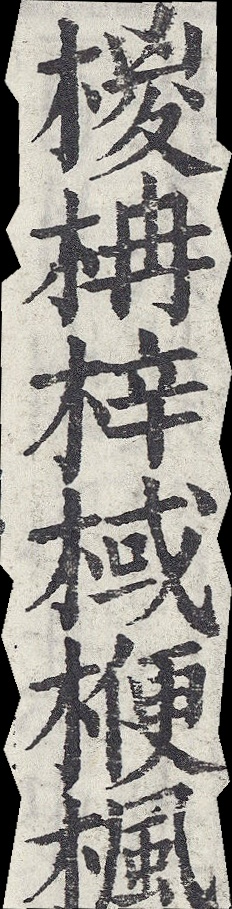椶柟梓棫楩楓
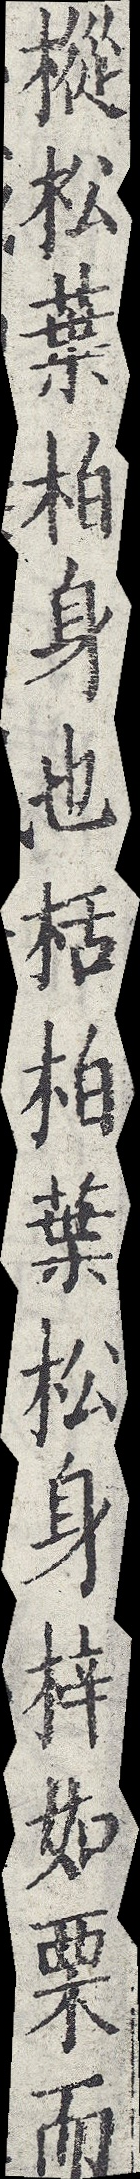樅松葉柏身也栝柏葉松身梓如栗而
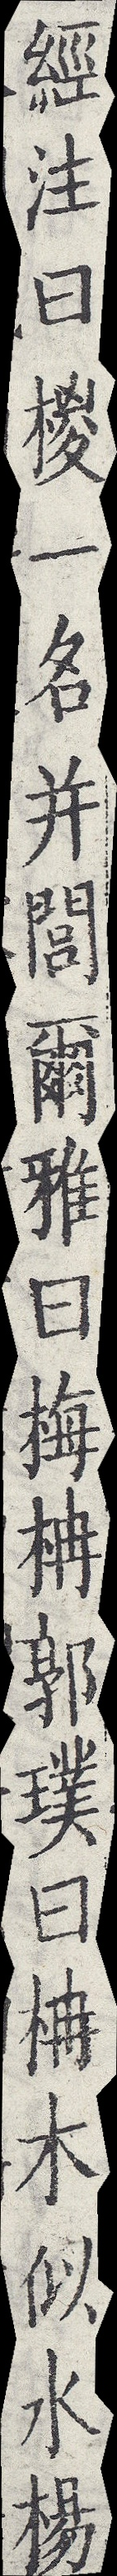經注曰椶一名并閭爾雅曰梅柟郭璞曰柟木似水楊
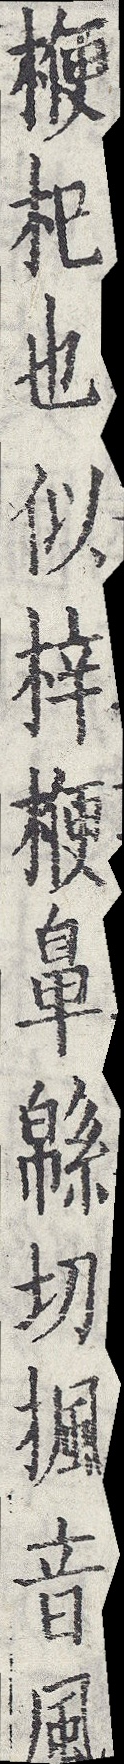楩杞也似梓楩鼻緜切楓音風
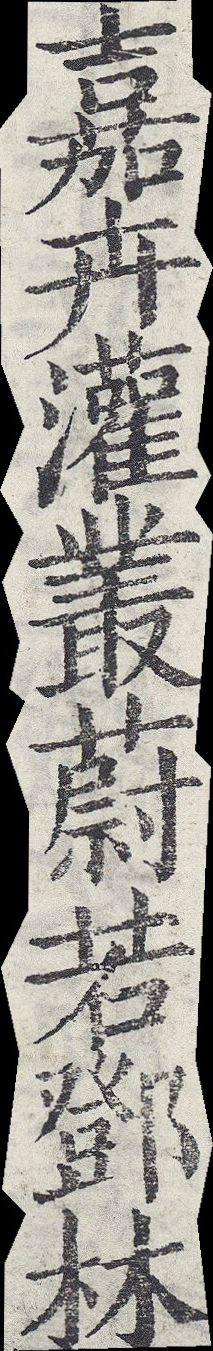嘉卉灌叢蔚若鄧林
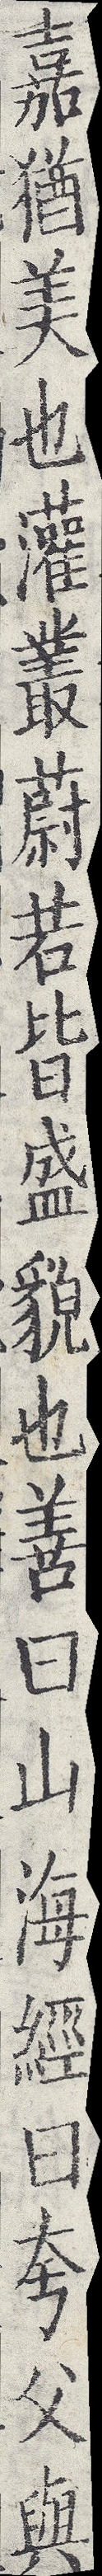嘉猶美也灌叢蔚若皆盛貌也善曰山海經曰夸父與
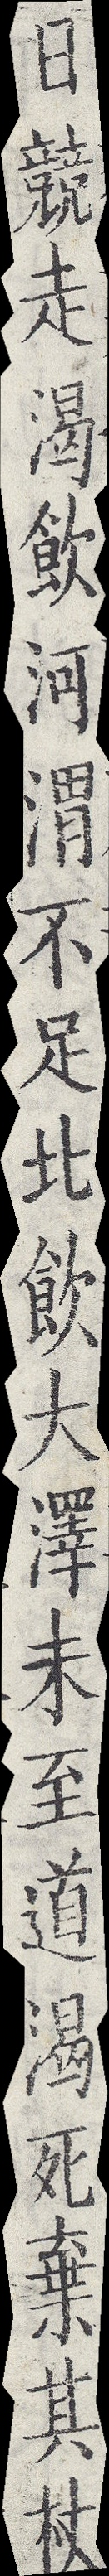日競走渴飲河渭不足北飲大澤未至道渴死棄其杖
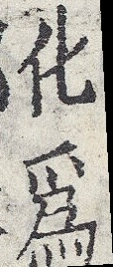化為
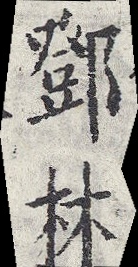鄧林
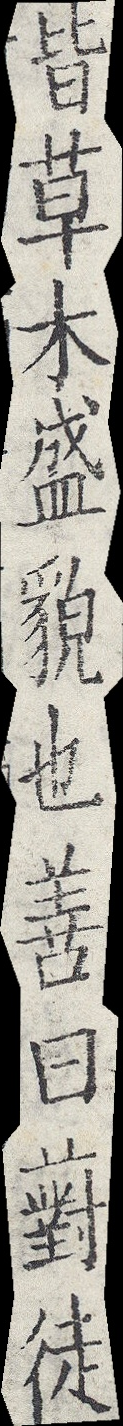皆草木盛貌也善曰薱徒
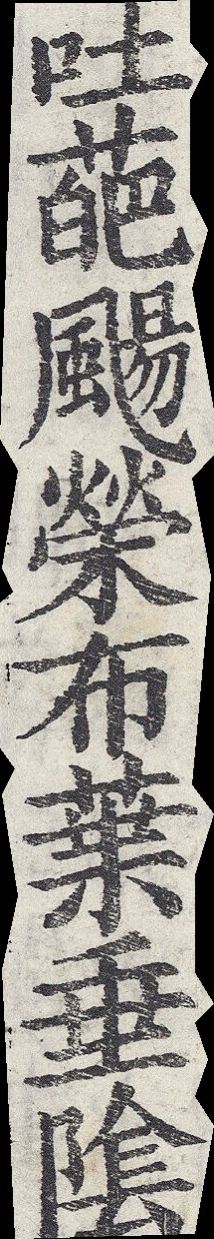吐葩颺榮布葉垂陰
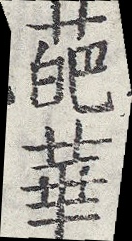葩華
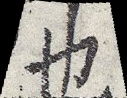也
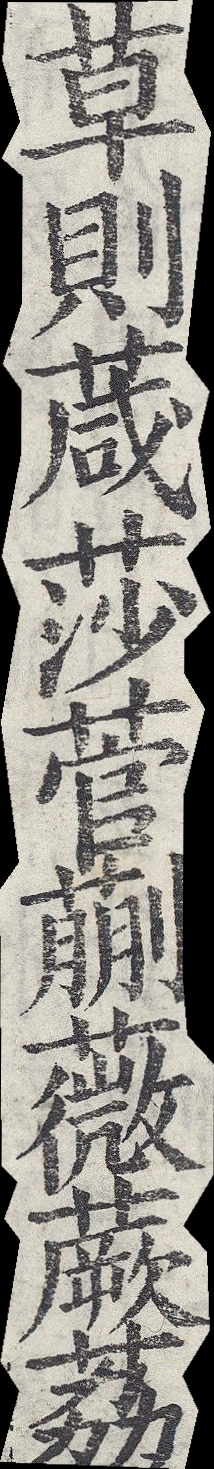草則葴莎菅蒯薇蕨荔
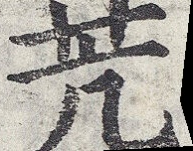苀
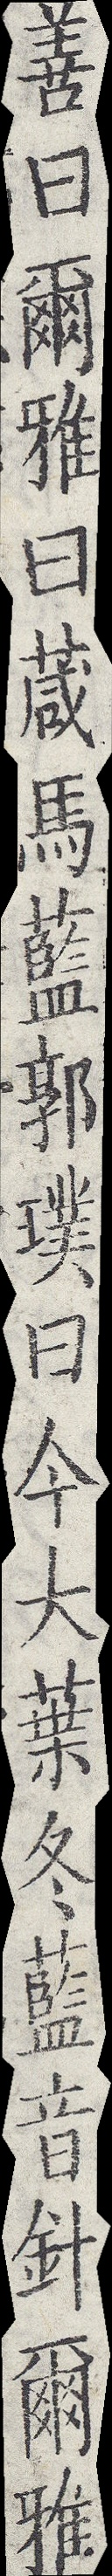善曰爾雅曰葴馬藍郭璞曰今大葉冬藍音針爾雅
